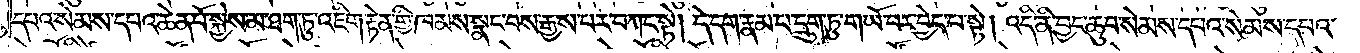དཔའ་སེམས་དཔའ་ཆེན་པོ་སྐྱེས་མ་ཐག་ཏུ་འཇིག་རྟེན་གྱི་ཁམས་སྣང་བས་རྒྱས་པར་བཀང་སྟེ། དེ་དག་རྣམ་པ་དྲུག་ཏུ་གཡོ་བར་བྱེད་པ་སྟེ། འདི་ནི་བྱང་ཆུབ་སེམས་དཔའ་སེམས་དཔའ་
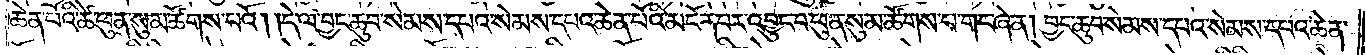ཆེན་པོའི་ཚེ་ཕུན་སུམ་ཚོགས་པའོ། །དེ་ལ་བྱང་ཆུབ་སེམས་དཔའ་སེམས་དཔའ་ཆེན་པོའི་མངོན་པར་འབྱུང་བ་ཕུན་སུམ་ཚོགས་པ་གང་ཞེ་ན། བྱང་ཆུབ་སེམས་དཔའ་སེམས་དཔའ་ཆེན་
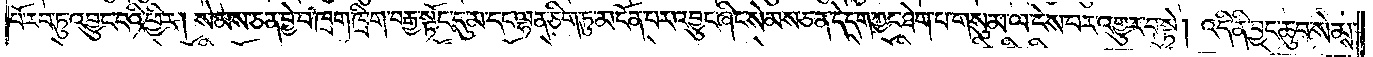པོ་རབ་ཏུ་འབྱུང་བའི་ཕྱིར། སེམས་ཅན་བྱེ་བ་ཁྲག་ཁྲིག་བརྒྱ་སྟོང་དུ་མ་དང་ལྷན་ཅིག་ཏུ་མངོན་པར་འབྱུང་ཞིང་སེམས་ཅན་དེ་དག་ཀྱང་ཐེག་པ་གསུམ་ལ་ངེས་པར་འགྱུར་བ་སྟེ། འདི་ནི་བྱང་ཆུབ་སེམས་
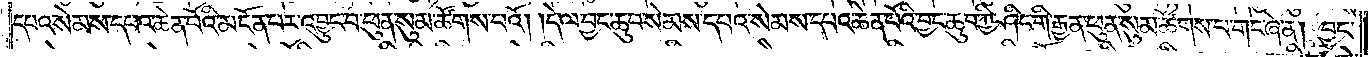དཔའ་སེམས་དཔའ་ཆེན་པོའི་མངོན་པར་འབྱུང་བ་ཕུན་སུམ་ཚོགས་པའོ། །དེ་ལ་བྱང་ཆུབ་སེམས་དཔའ་སེམས་དཔའ་ཆེན་པོའི་བྱང་ཆུབ་ཀྱི་ཤིང་གི་རྒྱན་ཕུན་སུམ་ཚོགས་པ་གང་ཞེ་ན། བྱང་
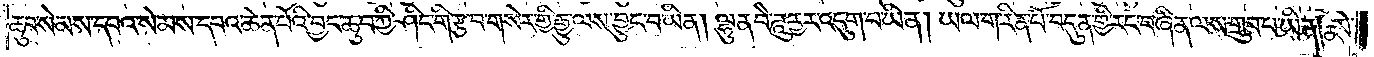ཆུབ་སེམས་དཔའ་སེམས་དཔའ་ཆེན་པོའི་བྱང་ཆུབ་ཀྱི་ཤིང་གི་རྩ་བ་གསེར་གྱི་རྒྱུ་ལས་བྱུང་བ་ཡིན། ལྷུན་བཻ་ཌཱུཪྻར་འདུག་པ་ཡིན། ཡལ་ག་རིན་པོ་ཆེ་བདུན་གྱི་རང་བཞིན་ལས་གྲུབ་པ་ཡིན། མེ་
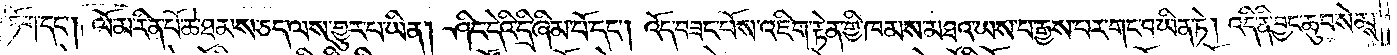ཏོག་དང༌། ལོ་མ་རིན་པོ་ཆེ་ཐམས་ཅད་ལས་གྱུར་པ་ཡིན། ཤིང་དེའི་དྲི་ཞིམ་པོ་དང༌། འོད་བཟང་པོས་འཇིག་རྟེན་གྱི་ཁམས་མཐའ་ཡས་པ་རྒྱས་པར་གང་བ་ཡིན་ཏེ། འདི་ནི་བྱང་ཆུབ་སེམས་
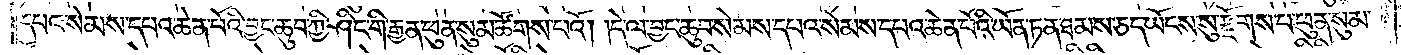དཔའ་སེམས་དཔའ་ཆེན་པོའི་བྱང་ཆུབ་ཀྱི་ཤིང་གི་རྒྱན་ཕུན་སུམ་ཚོགས་པའོ། །དེ་ལ་བྱང་ཆུབ་སེམས་དཔའ་སེམས་དཔའ་ཆེན་པོའི་ཡོན་ཏན་ཐམས་ཅད་ཡོངས་སུ་རྫོགས་པ་ཕུན་སུམ་
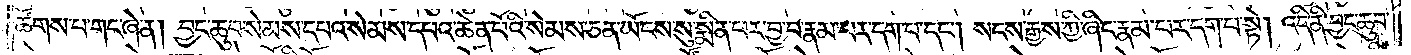ཚོགས་པ་གང་ཞེ་ན། བྱང་ཆུབ་སེམས་དཔའ་སེམས་དཔའ་ཆེན་པོའི་སེམས་ཅན་ཡོངས་སུ་སྨིན་པར་བྱ་བ་རྣམ་པར་དག་པ་དང༌། སངས་རྒྱས་ཀྱི་ཞིང་རྣམ་པར་དག་པ་སྟེ། འདི་ནི་བྱང་ཆུབ་
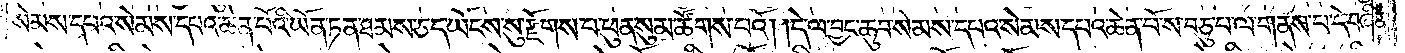སེམས་དཔའ་སེམས་དཔའ་ཆེན་པོའི་ཡོན་ཏན་ཐམས་ཅད་ཡོངས་སུ་རྫོགས་པ་ཕུན་སུམ་ཚོགས་པའོ། །དེ་ལ་བྱང་ཆུབ་སེམས་དཔའ་སེམས་དཔའ་ཆེན་པོ་ས་བཅུ་པ་ལ་གནས་པ་དེ་བཞིན་
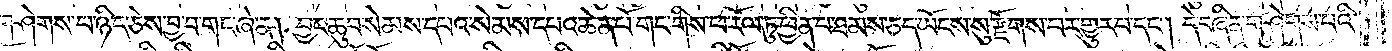གཤེགས་པ་ཉིད་ཅེས་བྱ་བ་གང་ཞེ་ན། བྱང་ཆུབ་སེམས་དཔའ་སེམས་དཔའ་ཆེན་པོ་གང་གིས་ཕ་རོལ་ཏུ་ཕྱིན་པ་ཐམས་ཅད་ཡོངས་སུ་རྫོགས་པར་གྱུར་པ་དང༌། དེ་བཞིན་གཤེགས་པའི་
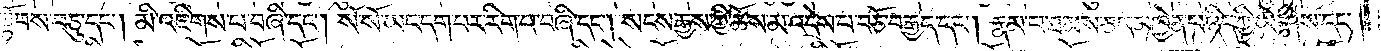སྟོབས་བཅུ་དང༌། མི་འཇིགས་པ་བཞི་དང༌། སོ་སོ་ཡང་དག་པར་རིག་པ་བཞི་དང༌། སངས་རྒྱས་ཀྱི་ཆོས་མ་འདྲེས་པ་བཅོ་བརྒྱད་དང༌། རྣམ་པ་ཐམས་ཅད་མཁྱེན་པ་ཉིད་ཀྱི་ཡེ་ཤེས་དང༌།
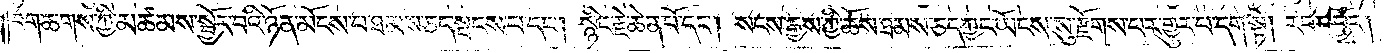བག་ཆགས་ཀྱི་མཚམས་སྦྱོར་བའི་ཉོན་མོངས་པ་ཐམས་ཅད་སྤངས་པ་དང༌། སྙིང་རྗེ་ཆེན་པོ་དང༌། སངས་རྒྱས་ཀྱི་ཆོས་ཐམས་ཅད་ཀྱང་ཡོངས་སུ་རྫོགས་པར་གྱུར་པ་དག་སྟེ། རབ་འབྱོར།
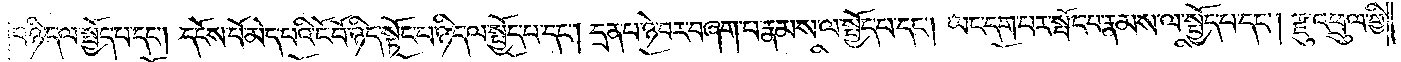པ་ཉིད་ལ་སྤྱོད་པ་དང༌། དངོས་པོ་མེད་པའི་ངོ་བོ་ཉིད་སྟོང་པ་ཉིད་ལ་སྤྱོད་པ་དང༌། དྲན་པ་ཉེ་བར་བཞག་པ་རྣམས་ལ་སྤྱོད་པ་དང༌། ཡང་དག་པར་སྤོང་བ་རྣམས་ལ་སྤྱོད་པ་དང༌། རྫུ་འཕྲུལ་གྱི་
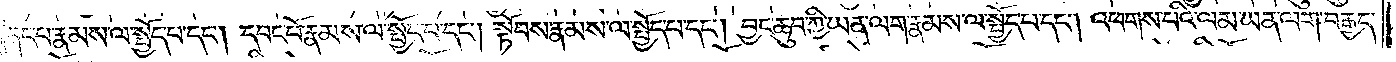རྐང་པ་རྣམས་ལ་སྤྱོད་པ་དང༌། དབང་པོ་རྣམས་ལ་སྤྱོད་པ་དང༌། སྟོབས་རྣམས་ལ་སྤྱོད་པ་དང༌། བྱང་ཆུབ་ཀྱི་ཡན་ལག་རྣམས་ལ་སྤྱོད་པ་དང༌། འཕགས་པའི་ལམ་ཡན་ལག་བརྒྱད་
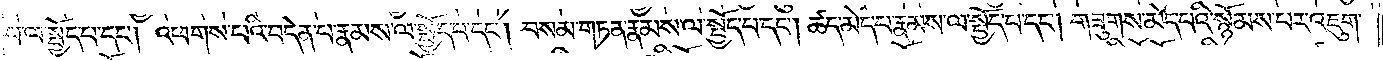པ་ལ་སྤྱོད་པ་དང༌། འཕགས་པའི་བདེན་པ་རྣམས་ལ་སྤྱོད་པ་དང༌། བསམ་གཏན་རྣམས་ལ་སྤྱོད་པ་དང༌། ཚད་མེད་པ་རྣམས་ལ་སྤྱོད་པ་དང༌། གཟུགས་མེད་པའི་སྙོམས་པར་འཇུག་
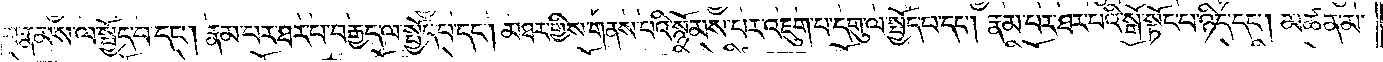པ་རྣམས་ལ་སྤྱོད་པ་དང༌། རྣམ་པར་ཐར་པ་བརྒྱད་ལ་སྤྱོད་པ་དང༌། མཐར་གྱིས་གནས་པའི་སྙོམས་པར་འཇུག་པ་དགུ་ལ་སྤྱོད་པ་དང༌། རྣམ་པར་ཐར་པའི་སྒོ་སྟོང་པ་ཉིད་དང༌། མཚན་མ་
